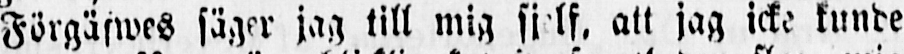Förgäfwes säger jag till mig sj lf, att jag icke kunde
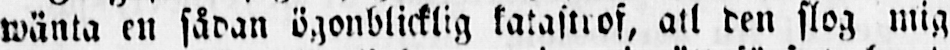wänta en sådan ögonblicklig katastrof, att den slog mig
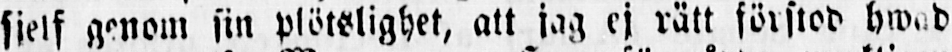sjelf genom sin plötslighet, att jag ej rätt förstod hwad
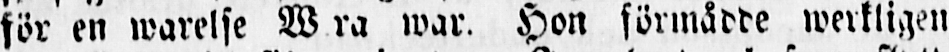för en warelse W ra war. Hon förmådde werkligen
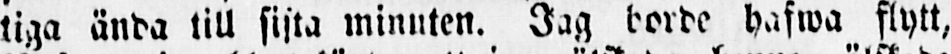tiga ända till sista minuten. Jag borde hafwa flytt,
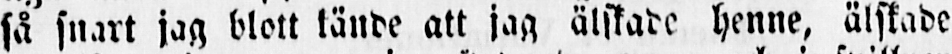så snart jag blott kände att jag älskade henne, älskade
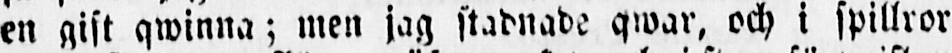en gift qwinna; men jag stadnade qwar, och i spillror
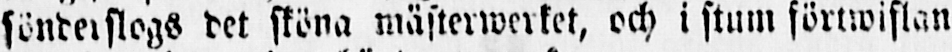sönderslogs det sköna mästerwerket, och i stum förtwiflan
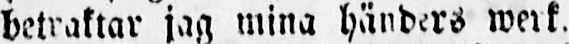betraktar jag mina händers werk.
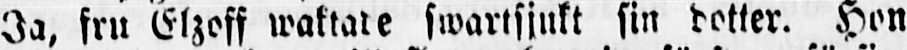Ja, fru Elzoff waktade swartsjukt sin dotter. Hon
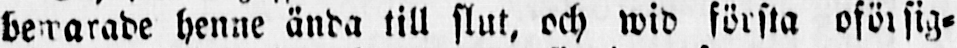bewarade henne ända till slut, och wid första oförsig-
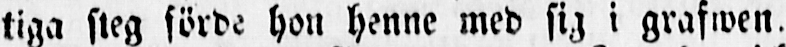tiga steg förde hon henne med sig i grafwen.
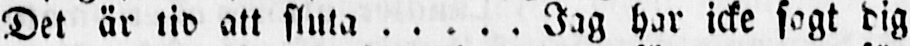Det är tid att sluta . . . . . Jag har icke sagt dig
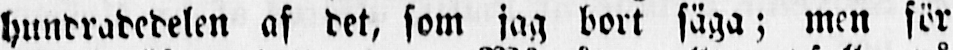hundradedelen af det, som jag bort säga; men för
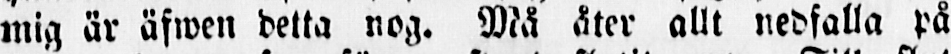mig är äfwen detta nog. Må åter allt nedfalla på
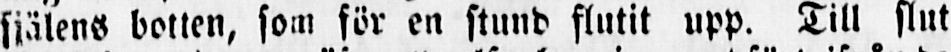själens botten, som för en stund flutit upp. Till slut
